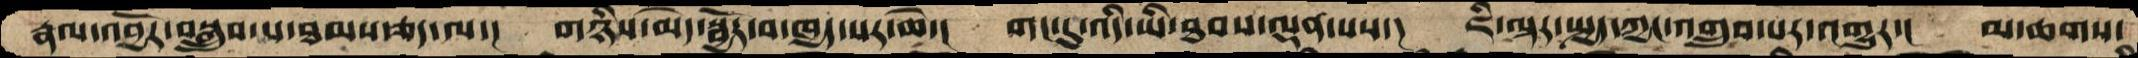རྣལ་འབྱོར་བསྒྲུབ་པ་ཐམས་ཅད་ལ་།  གཉིས་མེད་སྦྱོར་བ་ཁྱད་པར་ཆེ་།  གང་དུ་འདི་ཡི་ཐབས་ལྡན་པས་།  ཇི་ལྟར་སྤྱན་ཀྱང་འགྲུབ་པར་འགྱུར་།  མ་ཆགས་
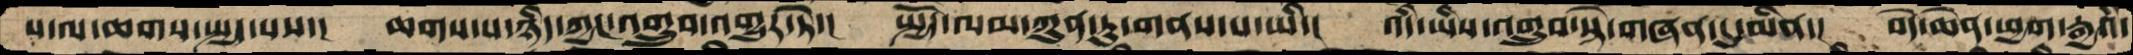པ་ལ་ཆགས་སྤྱད་པས་།  ཆགས་པ་ཉིད་ཀྱང་འགྲུབ་འགྱུར་ཏེ་།  སྤྱོད་ལམ་ཀུན་ཏུ་གནས་པ་ཡི་།  འདི་ཡིས་འགྲུབ་སྟེ་གཞན་དུ་མིན་།  བདེ་ཆེན་ཕྱག་རྒྱའི་
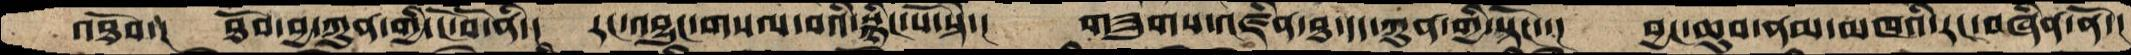འཐོབ་།  ཐོབ་བྱ་ཀུན་གྱི་ངོ་བོ་ནི་།  རང་འབྱུང་གསལ་བའི་སྙིང་པོ་སྟེ་།  གཟུགས་འཛིན་ཐ་དད་ཀུན་གྱི་སྟོང་་།  བྱང་ཆུབ་ནམ་མཁའི་རང་བཞིན་ནོ་།
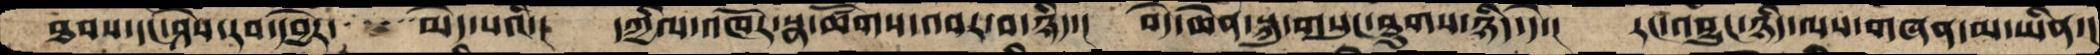ཐབས་དང་ཤེས་རབ་དབྱེར་ ་་་་ མེད་པའི་།   དཀྱིལ་འཁོར་སྣ་ཚོགས་འབར་བ་ཉིད་།  བདེ་ཆེན་སྐུ་གསུང་ཐུགས་ཉིད་དེ་།  རང་འབྱུང་ཉིད་ལས་གཞན་མ་ཡིན་།
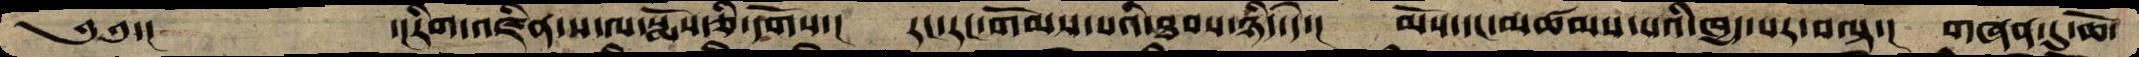༄༅་།   ་།རིག་འཛིན་ས་ལ་སྨོས་ཅི་དགོས་།   རང་རང་གོམས་པའི་ཐབས་ཉིད་དེ་།  མོས་དང་མཚམས་པའི་ཁྱད་པར་བལྟ་།   གཞན་དུ་ཆོ་
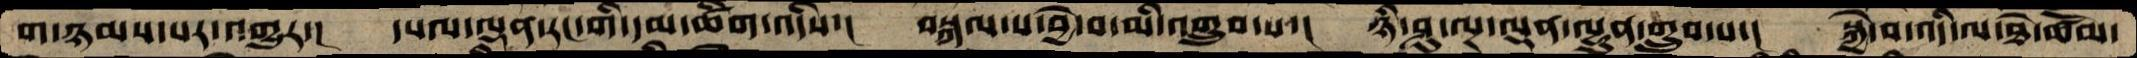ག་ཉམས་པར་འགྱུར་།   དཔལ་ལྡན་རང་གི་དམ་ཚིག་འདིས་།   བསྐལ་པ་བྱེ་བ་མི་འགྲུབ་པ་།  ཉི་ཤུ་ལྔ་ལྡན་ལྷུན་གྲུབ་པ་།  སྐྱེ་བ་འདི་ལ་ཐེ་ཚོམ་
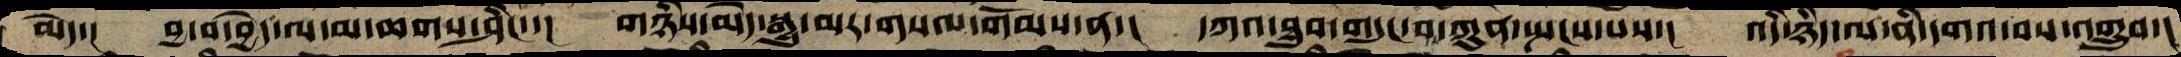མེད་།    བྱ་བ་བྱེད་ལ་མ་ཆགས་ཤིང་་།   གཉིས་མེད་སྒྱུ་མར་གསལ་གོམས་ན་།  དཀའ་ཐུབ་གདུང་བ་ཀུན་སྤངས་པས་།  འདི་ཉིད་ལ་ནི་དགའ་བས་འགྲུབ་།
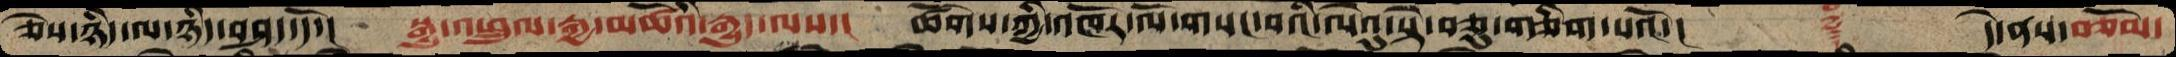ཅེས་ཉིད་ལ་ཉིད་བཤད་དོ་།   སྒྱུ་འཕྲུལ་རྒྱ་མཚོའི་རྒྱུད་ལས་།   ཚོགས་ཀྱི་འཁོར་ལོ་གསང་བའི་ལེའུ་སྟེ་བཅུ་གཅིག་པའོ་།      ࿑   དེ་ནས་བཅོམ་
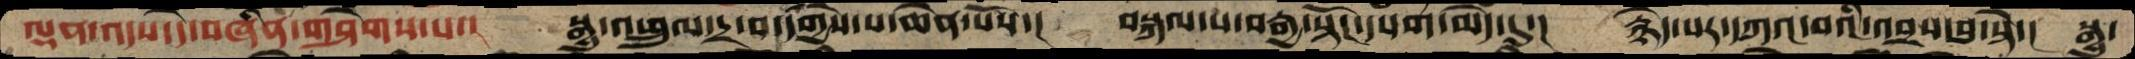ལྡན་འདས་དེ་བཞིན་གཤེགས་པ་།  སྒྱུ་འཕྲུལ་དྲ་བ་དགྱེས་པ་ཆེན་པོས་།  བསྐལ་པ་བརྒྱ་སྟོང་དཔག་མེད་དུ་།  རྙེད་པར་དཀའ་བའི་འབྲས་བུ་སྟེ་།  སྒྱུ་
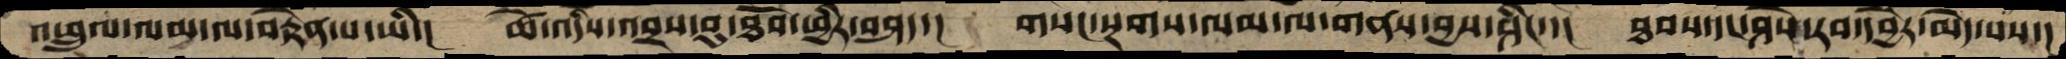འཕྲུལ་ལམ་ལ་བརྟེན་པ་ཡི་།  ཚེ་འདིས་འབྲས་བུ་ཐོབ་ཕྱིར་བཤད་།  གསང་སྔགས་ལམ་ལ་གནས་བྱས་ཤིང་་།  ཐབས་དང་ཤེས་རབ་དབྱེར་མེད་པས་།
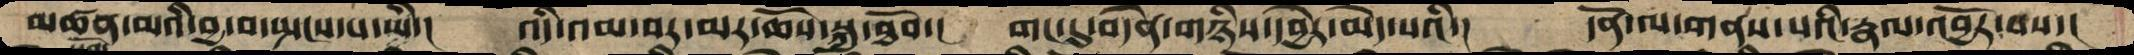མཚན་མའི་བྱ་བ་སྤངས་པ་ཡི་།  འདི་འམ་བར་མར་ཆོས་སྐུ་ཐོབ་།  གང་དུ་བདེན་གཉིས་དབྱེར་མེད་པའི་།  དོན་ལ་གནས་པའི་རྣལ་འབྱོར་བས་།
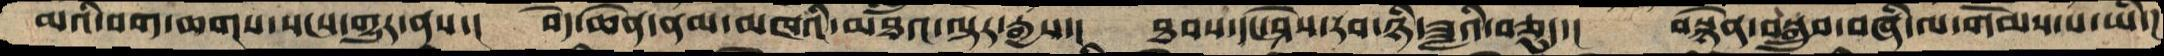མའི་བག་ཆགས་སངས་གྱུར་ནས་།  བདེ་ཆེན་ནམ་མཁའི་མཐའ་ལྟར་རྒྱས་།  ཐབས་དང་ཤེས་རབ་ཉི་ཟླའི་བཅུད་།  བསྙེན་བསྒྲུབ་བཞི་ལ་གོམས་པ་ཡི་།
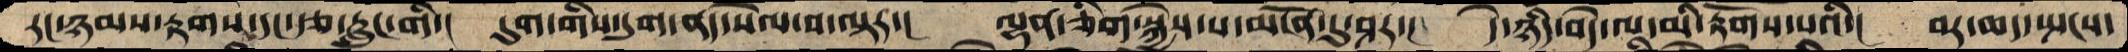རང་ཉམས་རྟགས་དང་རྩ་རླུང་གི་།  དུག་གིས་དུག་ནད་སེལ་བ་ལྟར་།  ལྷན་ཅིག་སྐྱེས་པ་མངོན་དུ་ཤར་།  དེ་ཉིད་བདེ་ལ་མི་རྟོགས་པའི་།  བར་ཆད་སྤངས་
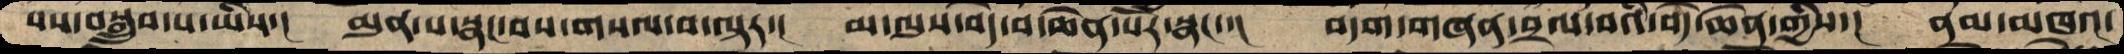པས་བསྒྲུབ་པ་ཡིས་།  མུན་པ་སྣང་བས་གསལ་བ་ལྟར་།  མ་ལུས་བདེ་བ་ཆེན་པོར་སྣང་་།  བདག་གཞན་བྲལ་བའི་བདེ་ཆེན་གྱིས་།  ནམ་མཁའ་
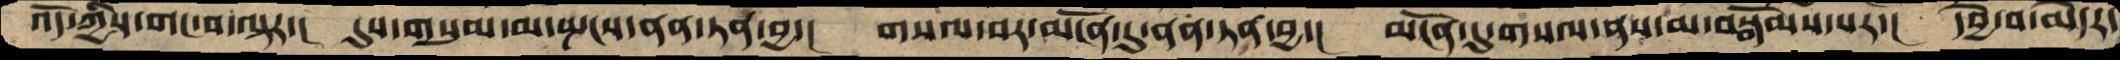འོད་ཀྱིས་གང་བ་ལྟར་།  དུས་གསུམ་མ་སྤངས་ནན་ཏན་བྱ་།  གསལ་བར་མངོན་དུ་ནན་ཏན་བྱ་།  མངོན་དུ་གསལ་ནས་མ་བསྒོམས་པར་།  དབྱེ་བ་མེདར་
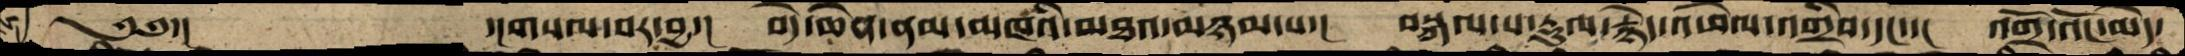༄༅་།   ་།གསལ་བར་བྱ་།  བདེ་ཆེན་ནམ་མཁའི་མཐའ་མཉམ་པ་།  བསྐལ་པ་རྡུལ་རྙེད་འཕེལ་འགྲིབ་དང་་།  འགྲོ་འོང་མེད་
